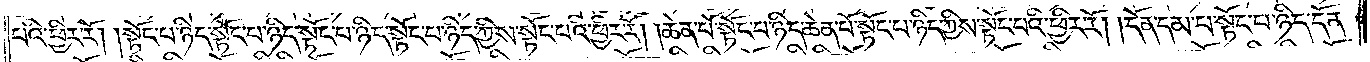པའི་ཕྱིར་རོ། །སྟོང་པ་ཉིད་སྟོང་པ་ཉིད་སྟོང་པ་ཉིད་སྟོང་པ་ཉིད་ཀྱིས་སྟོང་པའི་ཕྱིར་རོ། །ཆེན་པོ་སྟོང་པ་ཉིད་ཆེན་པོ་སྟོང་པ་ཉིད་ཀྱིས་སྟོང་པའི་ཕྱིར་རོ། །དོན་དམ་པ་སྟོང་པ་ཉིད་དོན་
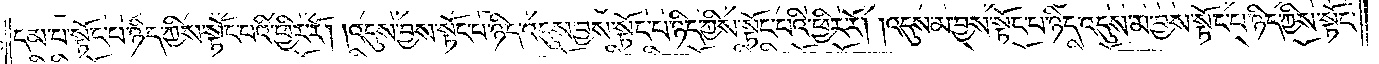དམ་པ་སྟོང་པ་ཉིད་ཀྱིས་སྟོང་པའི་ཕྱིར་རོ། །འདུས་བྱས་སྟོང་པ་ཉིད་འདུས་བྱས་སྟོང་པ་ཉིད་ཀྱིས་སྟོང་པའི་ཕྱིར་རོ། །འདུས་མ་བྱས་སྟོང་པ་ཉིད་འདུས་མ་བྱས་སྟོང་པ་ཉིད་ཀྱིས་སྟོང་
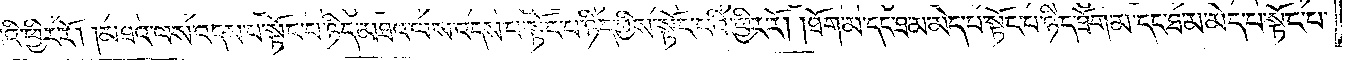པའི་ཕྱིར་རོ། །མཐའ་ལས་འདས་པ་སྟོང་པ་ཉིད་མཐའ་ལས་འདས་པ་སྟོང་པ་ཉིད་ཀྱིས་སྟོང་པའི་ཕྱིར་རོ། །ཐོག་མ་དང་ཐ་མ་མེད་པ་སྟོང་པ་ཉིད་ཐོག་མ་དང་ཐ་མ་མེད་པ་སྟོང་པ་
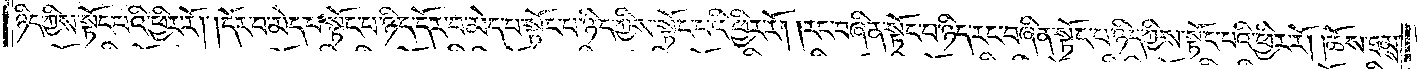ཉིད་ཀྱིས་སྟོང་པའི་ཕྱིར་རོ། །དོར་བ་མེད་པ་སྟོང་པ་ཉིད་དོར་བ་མེད་པ་སྟོང་པ་ཉིད་ཀྱིས་སྟོང་པའི་ཕྱིར་རོ། །རང་བཞིན་སྟོང་པ་ཉིད་རང་བཞིན་སྟོང་པ་ཉིད་ཀྱིས་སྟོང་པའི་ཕྱིར་རོ། །ཆོས་ཐམས་
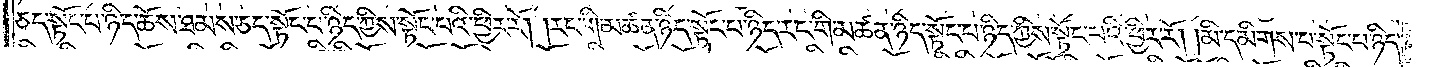ཅད་སྟོང་པ་ཉིད་ཆོས་ཐམས་ཅད་སྟོང་པ་ཉིད་ཀྱིས་སྟོང་པའི་ཕྱིར་རོ། །རང་གི་མཚན་ཉིད་སྟོང་པ་ཉིད་རང་གི་མཚན་ཉིད་སྟོང་པ་ཉིད་ཀྱིས་སྟོང་པའི་ཕྱིར་རོ། །མི་དམིགས་པ་སྟོང་པ་ཉིད་
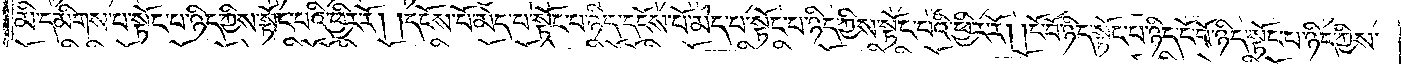མི་དམིགས་པ་སྟོང་པ་ཉིད་ཀྱིས་སྟོང་པའི་ཕྱིར་རོ། །དངོས་པོ་མེད་པ་སྟོང་པ་ཉིད་དངོས་པོ་མེད་པ་སྟོང་པ་ཉིད་ཀྱིས་སྟོང་པའི་ཕྱིར་རོ། །ངོ་བོ་ཉིད་སྟོང་པ་ཉིད་ངོ་བོ་ཉིད་སྟོང་པ་ཉིད་ཀྱིས་
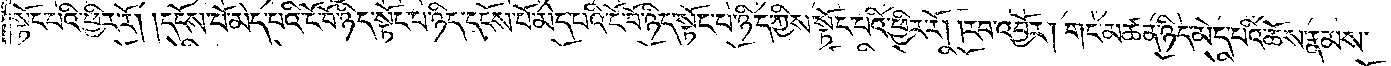སྟོང་པའི་ཕྱིར་རོ། །དངོས་པོ་མེད་པའི་ངོ་བོ་ཉིད་སྟོང་པ་ཉིད་དངོས་པོ་མེད་པའི་ངོ་བོ་ཉིད་སྟོང་པ་ཉིད་ཀྱིས་སྟོང་པའི་ཕྱིར་རོ། །རབ་འབྱོར། གང་མཚན་ཉིད་མེད་པའི་ཆོས་རྣམས་
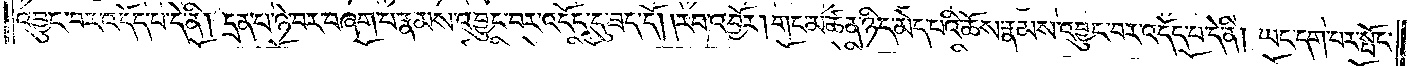འབྱུང་བར་འདོད་པ་དེ་ནི། དྲན་པ་ཉེ་བར་བཞག་པ་རྣམས་འབྱུང་བར་འདོད་དུ་ཟད་དོ། །རབ་འབྱོར། གང་མཚན་ཉིད་མེད་པའི་ཆོས་རྣམས་འབྱུང་བར་འདོད་པ་དེ་ནི། ཡང་དག་པར་སྤོང་
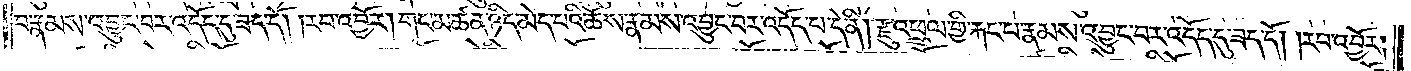བ་རྣམས་འབྱུང་བར་འདོད་དུ་ཟད་དོ། །རབ་འབྱོར། གང་མཚན་ཉིད་མེད་པའི་ཆོས་རྣམས་འབྱུང་བར་འདོད་པ་དེ་ནི། རྫུ་འཕྲུལ་གྱི་རྐང་པ་རྣམས་འབྱུང་བར་འདོད་དུ་ཟད་དོ། །རབ་འབྱོར།
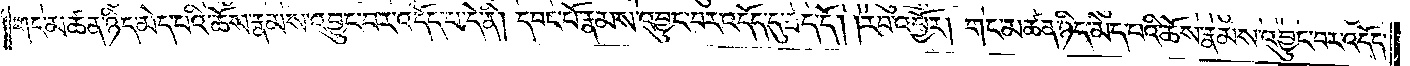གང་མཚན་ཉིད་མད་པའི་ཆོས་རྣམས་འབྱུང་བར་འདོད་པ་དེ་ནི། དབང་པོ་རྣམས་འབྱུང་བར་འདོད་དུ་ཟད་དོ། །རབ་འབྱོར། གང་མཚན་ཉིད་མེད་པའི་ཆོས་རྣམས་འབྱུང་བར་འདོད་
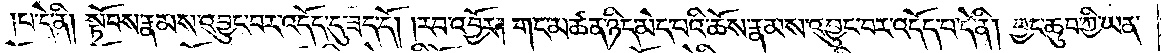པ་དེ་ནི། སྟོབས་རྣམས་འབྱུང་བར་འདོད་དུ་ཟད་དོ། །རབ་འབྱོར། གང་མཚན་ཉིད་མེད་པའི་ཆོས་རྣམས་འབྱུང་བར་འདོད་པ་དེ་ནི། བྱང་ཆུབ་ཀྱི་ཡན་
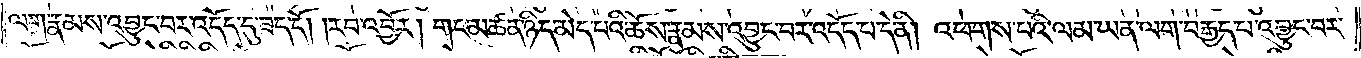ལག་རྣམས་འབྱུང་བར་འདོད་དུ་ཟད་དོ། །རབ་འབྱོར། གང་མཚན་ཉིད་མེད་པའི་ཆོས་རྣམས་འབྱུང་བར་འདོད་པ་དེ་ནི། འཕགས་པའི་ལམ་ཡན་ལག་བརྒྱད་པ་འབྱུང་བར་
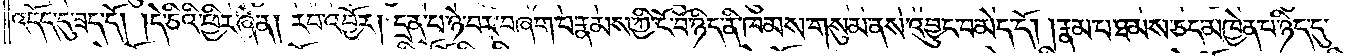འདོད་དུ་ཟད་དོ། །དེ་ཅིའི་ཕྱིར་ཞེ་ན། རབ་འབྱོར། དྲན་པ་ཉེ་བར་བཞག་པ་རྣམས་ཀྱི་ངོ་བོ་ཉིད་ནི་ཁམས་གསུམ་ནས་འབྱུང་བ་མེད་དོ། །རྣམ་པ་ཐམས་ཅད་མཁྱེན་པ་ཉིད་དུ་
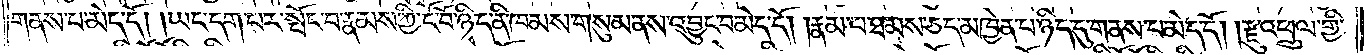གནས་པ་མེད་དོ། །ཡང་དག་པར་སྤོང་བ་རྣམས་ཀྱི་ངོ་བོ་ཉིད་ནི་ཁམས་གསུམ་ནས་འབྱུང་བ་མེད་དོ། །རྣམ་པ་ཐམས་ཅད་མཁྱེན་པ་ཉིད་དུ་གནས་པ་མེད་དོ། །རྫུ་འཕྲུལ་གྱི་
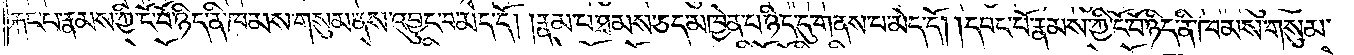རྐང་པ་རྣམས་ཀྱི་ངོ་བོ་ཉིད་ནི་ཁམས་གསུམ་ནས་འབྱུང་བ་མེད་དོ། རྣམ་པ་ཐམས་ཅད་མཁྱེན་པ་ཉིད་དུ་གནས་པ་མེད་དོ། །དབང་པོ་རྣམས་ཀྱི་ངོ་བོ་ཉིད་ནི་ཁམས་གསུམ་
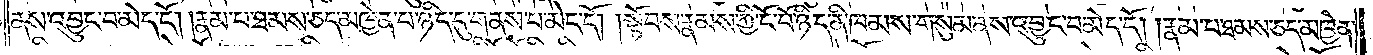ནས་འབྱུང་བ་མེད་དོ། །རྣམ་པ་ཐམས་ཅད་མཁྱེན་པ་ཉིད་དུ་གནས་པ་མེད་དོ། །སྟོབས་རྣམས་ཀྱི་ངོ་བོ་ཉིད་ནི་ཁམས་གསུམ་ནས་འབྱུང་བ་མེད་དོ། །རྣམ་པ་ཐམས་ཅད་མཁྱེན་
